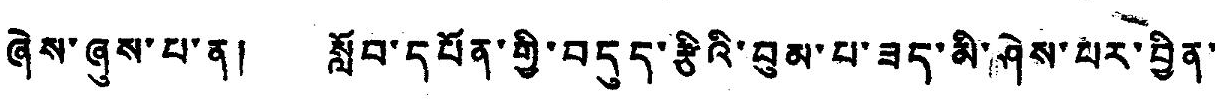ཞེས་ཞུས་པ་ན། སློབ་དཔོན་གྱི་བདུད་རྩིའི་བུམ་པ་ཟད་མི་ཤེས་པར་བྱིན་
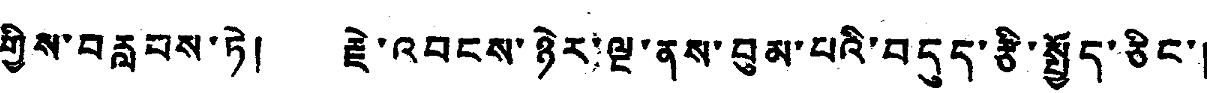གྱིས་བརླབས་ཏེ། རྗེ་འབངས་ཉེར་ལྔ་ནས་བུམ་པའི་བདུད་རྩི་སྤྱོད་ཅིང་།
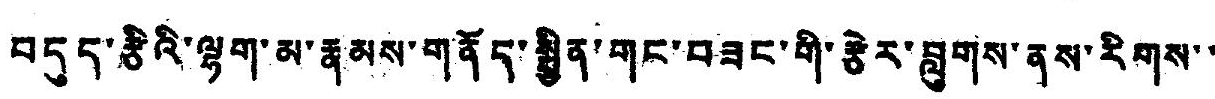བདུད་རྩིའི་ལྷག་མ་རྣམས་གནོད་སྦྱིན་གང་བཟང་གི་རྩེར་བླུགས་ནས་རིགས་་
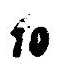10
